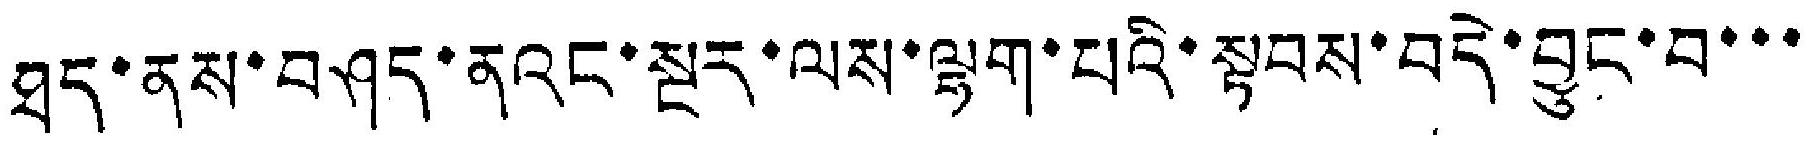ཐད་ནས་བཤད་ནའང་སྔར་ལས་ལྷག་པའི་སྟབས་བདེ་བྱུང་བ་་་
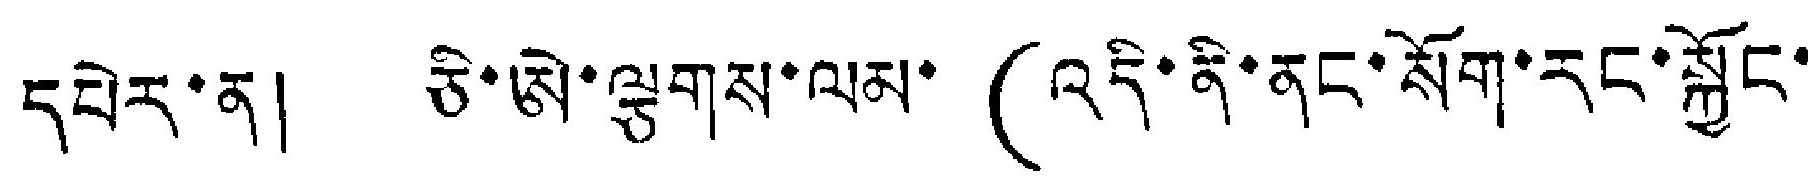དཔེར་ན། ཅི་ཨེ་ལྕགས་ལམ་ (འདི་ནི་ནང་སོག་རང་སྐྱོང་
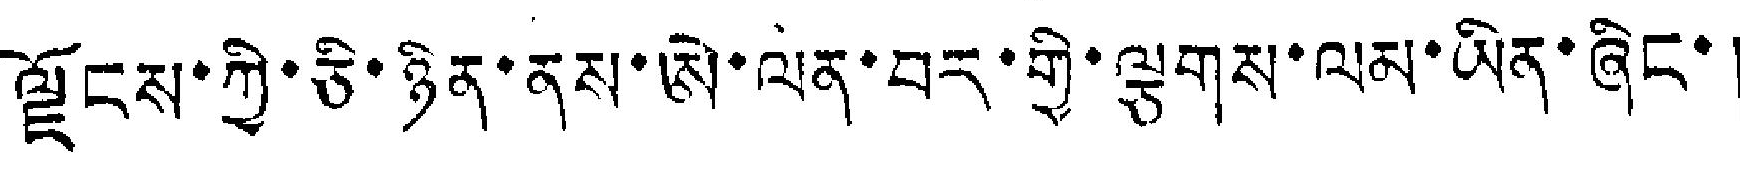ལྗོངས་ཀྱི་ཅི་ཉིན་ནས་ཨེ་ལན་བར་གྱི་ལྕགས་ལམ་ཡིན་ཞིང་།
